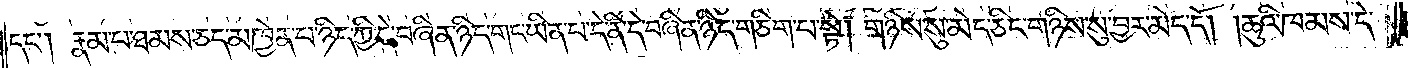དང༌། རྣམ་པ་ཐམས་ཅད་མཁྱེན་པ་ཉིད་ཀྱི་དེ་བཞིན་ཉིད་གང་ཡིན་པ་དེ་ནི་དེ་བཞིན་ཉིད་གཅིག་པ་སྟེ། གཉིས་སུ་མེད་ཅིང་གཉིས་སུ་བྱར་མེད་དོ། །ཆུའི་ཁམས་དེ་
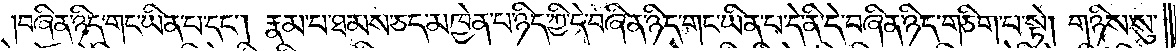བཞིན་ཉིད་གང་ཡིན་པ་དང༌། རྣམ་པ་ཐམས་ཅད་མཁྱེན་པ་ཉིད་ཀྱི་དེ་བཞིན་ཉིད་གང་ཡིན་པ་དེ་ནི་དེ་བཞིན་ཉིད་གཅིག་པ་སྟེ། གཉིས་སུ་
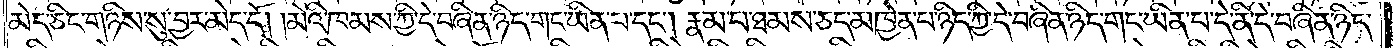མེད་ཅིང་གཉིས་སུ་བྱར་མེད་དོ། །མེའི་ཁམས་ཀྱི་དེ་བཞིན་ཉིད་གང་ཡིན་པ་དང༌། རྣམ་པ་ཐམས་ཅད་མཁྱེན་པ་ཉིད་ཀྱི་དེ་བཞིན་ཉིད་གང་ཡིན་པ་དེ་ནི་དེ་བཞིན་ཉིད་
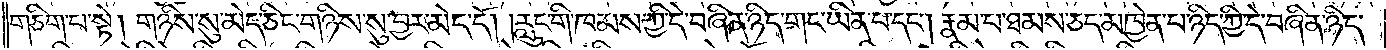གཅིག་པ་སྟེ། གཉིས་སུ་མེད་ཅིང་གཉིས་སུ་བྱར་མེད་དོ། །རླུང་གི་ཁམས་ཀྱི་དེ་བཞིན་ཉིད་གང་ཡིན་པ་དང༌། རྣམ་པ་ཐམས་ཅད་མཁྱེན་པ་ཉིད་ཀྱི་དེ་བཞིན་ཉིད་
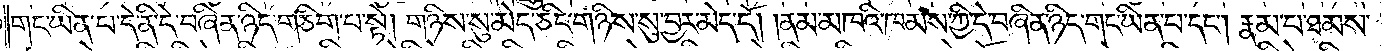གང་ཡིན་པ་དེ་ནི་དེ་བཞིན་ཉིད་གཅིག་པ་སྟེ། གཉིས་སུ་མེད་ཅིང་གཉིས་སུ་བྱར་མེད་དོ། །ནམ་མཁའི་ཁམས་ཀྱི་དེ་བཞིན་ཉིད་གང་ཡིན་པ་དང༌། རྣམ་པ་ཐམས་
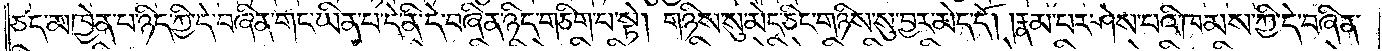ཅད་མཁྱེན་པ་ཉིད་ཀྱི་དེ་བཞིན་ཉིད་གང་ཡིན་པ་དེ་ནི་དེ་བཞིན་ཉིད་གཅིག་པ་སྟེ། གཉིས་སུ་མེད་ཅིང་གཉིས་སུ་བྱར་མེད་དོ། །རྣམ་པར་ཤེས་པའི་ཁམས་ཀྱི་དེ་བཞིན་
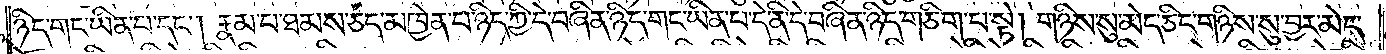ཉིད་གང་ཡིན་པ་དང༌། རྣམ་པ་ཐམས་ཅད་མཁྱེན་པ་ཉིད་ཀྱི་དེ་བཞིན་ཉིད་གང་ཡིན་པ་དེ་ནི་དེ་བཞིན་ཉིད་གཅིག་པ་སྟེ། གཉིས་སུ་མེད་ཅིང་གཉིས་སུ་བྱར་མེད་
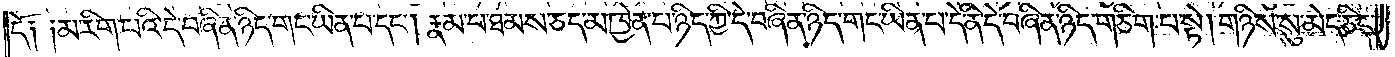དོ༑ ༑མ་རིག་པའི་དེ་བཞིན་ཉིད་གང་ཡིན་པ་དང༌། རྣམ་པ་ཐམས་ཅད་མཁྱེན་པ་ཉིད་ཀྱི་དེ་བཞིན་ཉིད་གང་ཡིན་པ་དེ་ནི་དེ་བཞིན་ཉིད་གཅིག་པ་སྟེ། གཉིས་སུ་མེད་ཅིང་
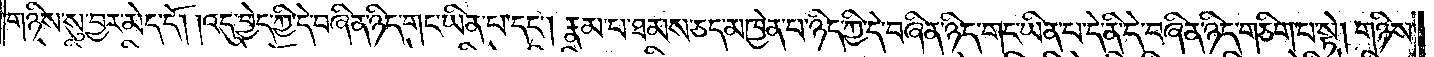གཉིས་སུ་བྱར་མེད་དོ། །འདུ་བྱེད་ཀྱི་དེ་བཞིན་ཉིད་གང་ཡིན་པ་དང༌། རྣམ་པ་ཐམས་ཅད་མཁྱེན་པ་ཉིད་ཀྱི་དེ་བཞིན་ཉིད་གང་ཡིན་པ་དེ་ནི་དེ་བཞིན་ཉིད་གཅིག་པ་སྟེ། གཉིས་
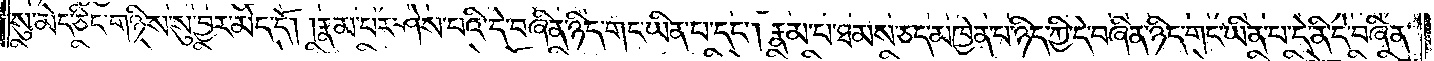སུ་མེད་ཅིང་གཉིས་སུ་བྱར་མེད་དོ། །རྣམ་པར་ཤེས་པའི་དེ་བཞིན་ཉིད་གང་ཡིན་པ་དང༌། རྣམ་པ་ཐམས་ཅད་མཁྱེན་པ་ཉིད་ཀྱི་དེ་བཞིན་ཉིད་གང་ཡིན་པ་དེ་ནི་དེ་བཞིན་
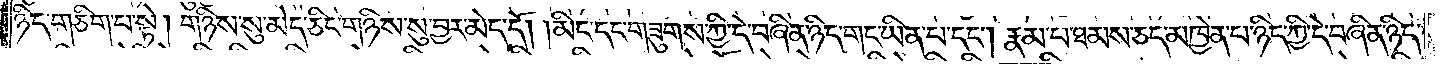ཉིད་གཅིག་པ་སྟེ། གཉིས་སུ་མེད་ཅིང་གཉིས་སུ་བྱར་མེད་དོ། །མིང་དང་གཟུགས་ཀྱི་དེ་བཞིན་ཉིད་གང་ཡིན་པ་དང༌། རྣམ་པ་ཐམས་ཅད་མཁྱེན་པ་ཉིད་ཀྱི་དེ་བཞིན་ཉིད་
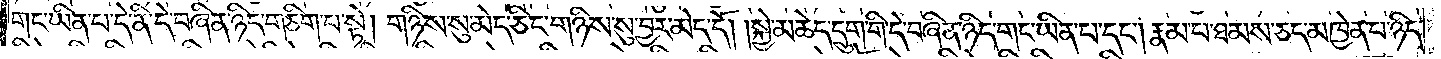གང་ཡིན་པ་དེ་ནི་དེ་བཞིན་ཉིད་གཅིག་པ་སྟེ། གཉིས་སུ་མེད་ཅིང་གཉིས་སུ་བྱར་མེད་དོ། །སྐྱེ་མཆེད་དྲུག་གི་དེ་བཞིན་ཉིད་གང་ཡིན་པ་དང༌། རྣམ་པ་ཐམས་ཅད་མཁྱེན་པ་ཉིད་
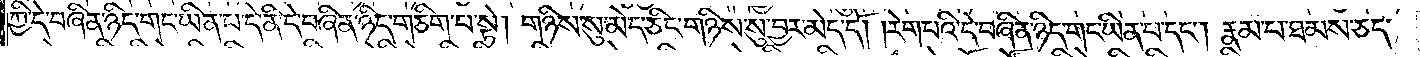ཀྱི་དེ་བཞིན་ཉིད་གང་ཡིན་པ་དེ་ནི་དེ་བཞིན་ཉིད་གཅིག་པ་སྟེ། གཉིས་སུ་མེད་ཅིང་གཉིས་སུ་བྱར་མེད་དོ། །རེག་པའི་དེ་བཞིན་ཉིད་གང་ཡིན་པ་དང༌། རྣམ་པ་ཐམས་ཅད་
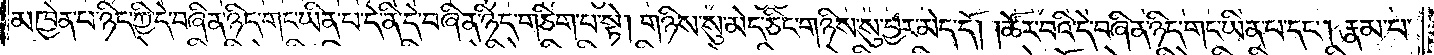མཁྱེན་པ་ཉིད་ཀྱི་དེ་བཞིན་ཉིད་གང་ཡིན་པ་དེ་ནི་དེ་བཞིན་ཉིད་གཅིག་པ་སྟེ། གཉིས་སུ་མེད་ཅིང་གཉིས་སུ་བྱར་མེད་དོ། །ཚོར་བའི་དེ་བཞིན་ཉིད་གང་ཡིན་པ་དང༌། རྣམ་པ་
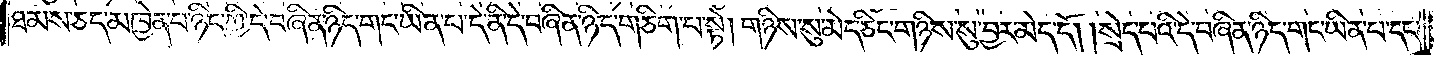ཐམས་ཅད་མཁྱེན་པ་ཉིད་ཀྱི་དེ་བཞིན་ཉིད་གང་ཡིན་པ་དེ་ནི་དེ་བཞིན་ཉིད་གཅིག་པ་སྟེ། གཉིས་སུ་མེད་ཅིང་གཉིས་སུ་བྱར་མེད་དོ། །སྲེད་པའི་དེ་བཞིན་ཉིད་གང་ཡིན་པ་དང༌།
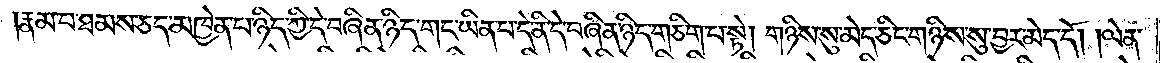རྣམ་པ་ཐམས་ཅད་མཁྱེན་པ་ཉིད་ཀྱི་དེ་བཞིན་ཉིད་གང་ཡིན་པ་དེ་ནི་དེ་བཞིན་ཉིད་གཅིག་པ་སྟེ། གཉིས་སུ་མེད་ཅིང་གཉིས་སུ་བྱར་མེད་དོ། །ལེན་
